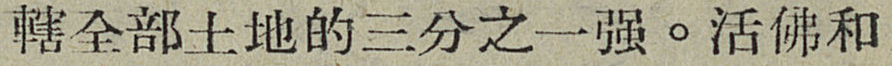轄全部土地的三分之一强。活佛和
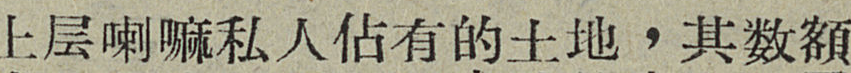上层喇嘛私人佔有的土地，其数額
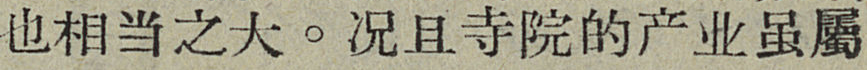也相当之大。况且寺院的产业虽屬
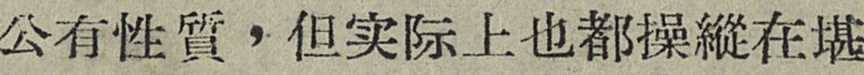公有性質，但实际上也都操縱在堪
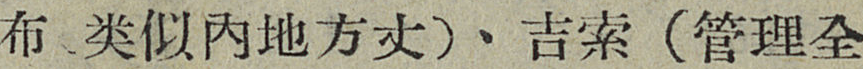布、类似内地方丈）、吉索（管理全
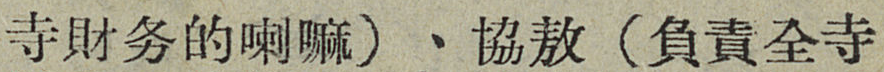寺財务的喇嘛）、協敖（負責全寺
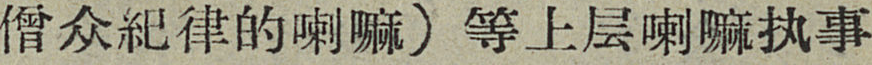僧众紀律的喇嘛）等上层喇嘛执事
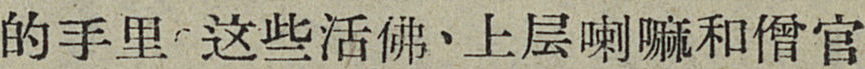的手里。这些活佛、上层喇嘛和僧官
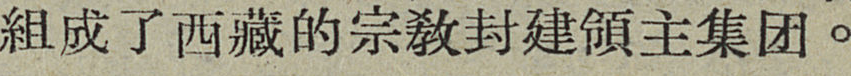組成了西藏的宗敎封建領主集团。
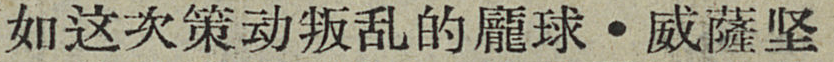如这次策动叛乱的龐球・威薩坚
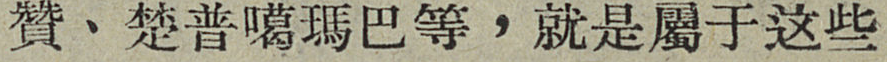贊、楚普噶瑪巴等，就是屬于这些
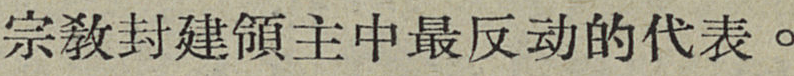宗敎封建領主中最反动的代表。
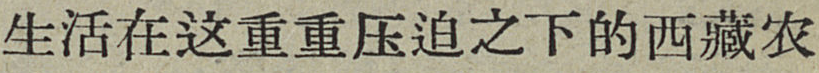生活在这重重压迫之下的西藏农
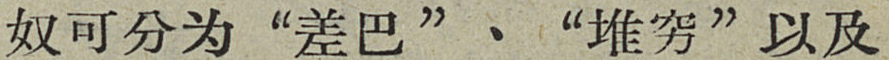奴可分为“差巴”、“堆穷”以及
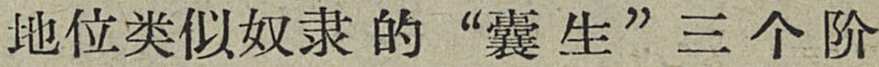地位类似奴隶的“囊生”三个阶
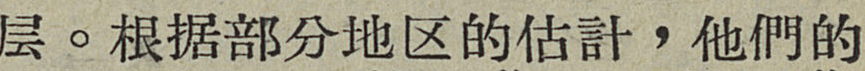层。根据部分地区的估計，他們的
